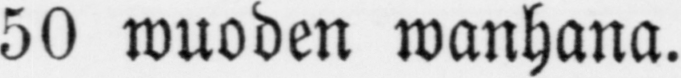50 wuoden wanhana.
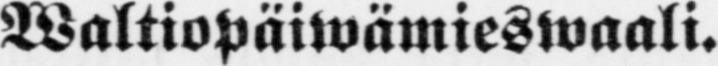Waltiopäiwämieswaali.
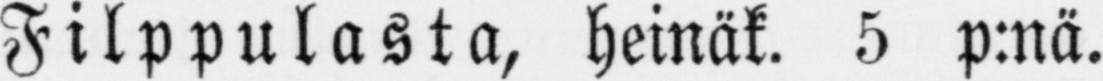Filppulasta, heinäk. 5 p:nä.
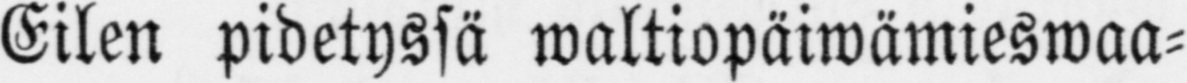Eilen pidetyssä waltiopäiwämieswaa-
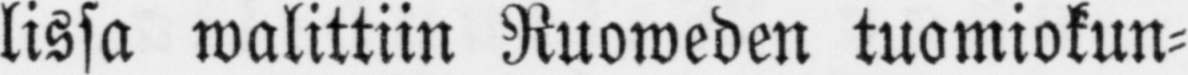lissa walittiin Ruoweden tuomiokun-
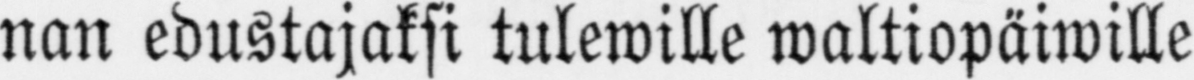nan edustajaksi tulewille waltiopäiwille
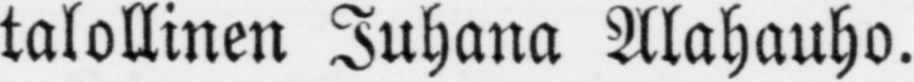talollinen Juhana Alahauho.
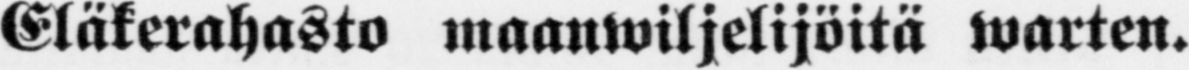Eläkerahasto maanwiljelijöitä warten.
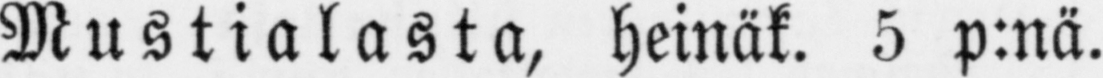Mustialasta, heinät. 5 p:nä.
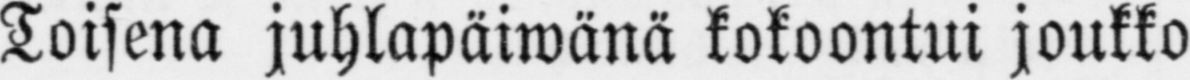Toisena juhlapäiwänä kokoontui joukko
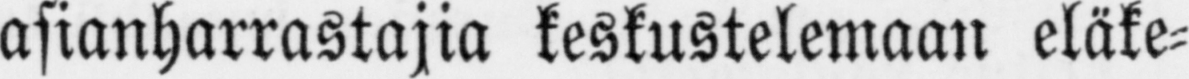asianharrastajia keskustelemaan eläke-
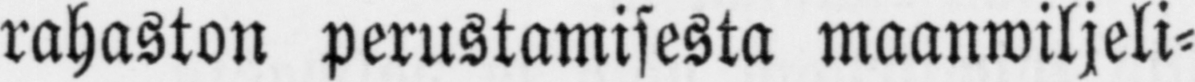rahaston perustamisesta maanwiljeli-
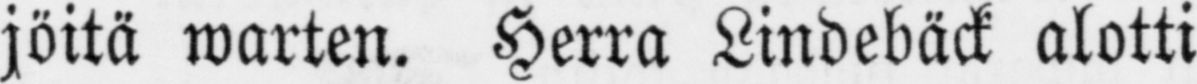joitä warten. Herra Lindebäck alotti
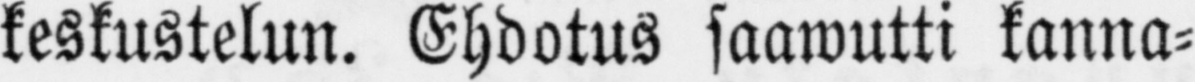keskustelun. Ehdotus saawutti kanna-
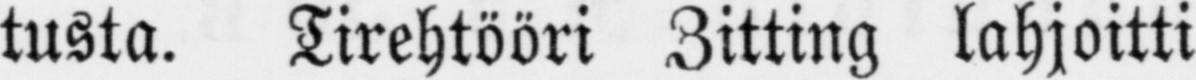tusta. Tirehtööri Zitting lahjoitti
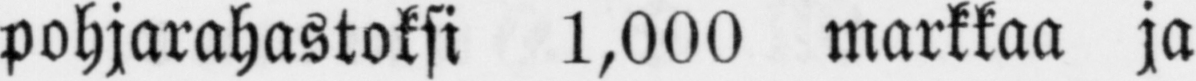pohjarahastoksi 1,000 markkaa ja
